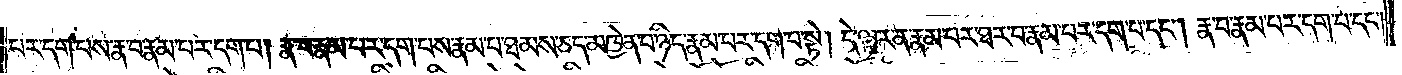པར་དག་པས་རྣ་བ་རྣམ་པར་དག་པ། རྣ་བ་རྣམ་པར་དག་པས་རྣམ་པ་ཐམས་ཅད་མཁྱེན་པ་ཉིད་རྣམ་པར་དག་པ་སྟེ། དེ་ལྟར་ན་རྣམ་པར་ཐར་པ་རྣམ་པར་དག་པ་དང༌། རྣ་བ་རྣམ་པར་དག་པ་དང༌།
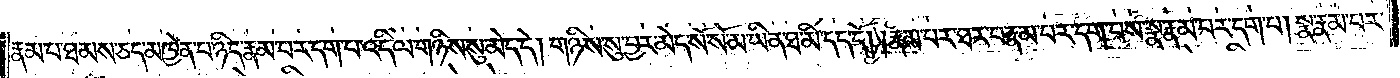རྣམ་པ་ཐམས་ཅད་མཁྱེན་པ་ཉིད་རྣམ་པར་དག་པ་འདི་ལ་གཉིས་སུ་མེད་དེ། གཉིས་སུ་བྱར་མེད་སོ་སོ་མ་ཡིན་ཐ་མི་དང་དོ། །རྣམ་པར་ཐར་པ་རྣམ་པར་དག་པས་སྣ་རྣམ་པར་དག་པ། སྣ་རྣམ་པར་
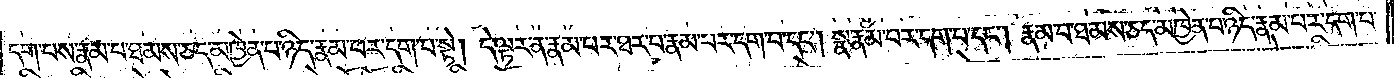དག་པས་རྣམ་པ་ཐམས་ཅད་མཁྱེན་པ་ཉིད་རྣམ་པར་དག་པ་སྟེ། དེ་ལྟར་ན་རྣམ་པར་ཐར་པ་རྣམ་པར་དག་པ་དང༌། སྣ་རྣམ་པར་དག་པ་དང༌། རྣམ་པ་ཐམས་ཅད་མཁྱེན་པ་ཉིད་རྣམ་པར་དག་པ་
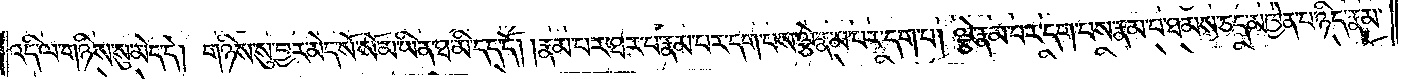འདི་ལ་གཉིས་སུ་མེད་དེ། གཉིས་སུ་བྱར་མེད་སོ་སོ་མ་ཡིན་ཐ་མི་དད་དོ། །རྣམ་པར་ཐར་པ་རྣམ་པར་དག་པས་ལྕེ་རྣམ་པར་དག་པ། ལྕེ་རྣམ་པར་དག་པས་རྣམ་པ་ཐམས་ཅད་མཁྱེན་པ་ཉིད་རྣམ་
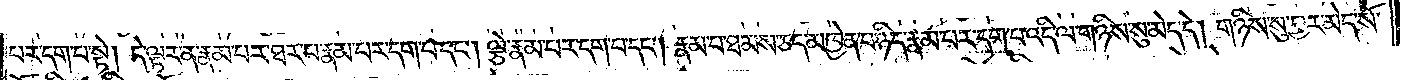པར་དག་པ་སྟེ། དེ་ལྟར་ན་རྣམ་པར་ཐར་པ་རྣམ་པར་དག་པ་དང༌། ལྕེ་རྣམ་པར་དག་པ་དང༌། རྣམ་པ་ཐམས་ཅད་མཁྱེན་པ་ཉིད་རྣམ་པར་དག་པ་འདི་ལ་གཉིས་སུ་མེད་དེ། གཉིས་སུ་བྱར་མེད་སོ་
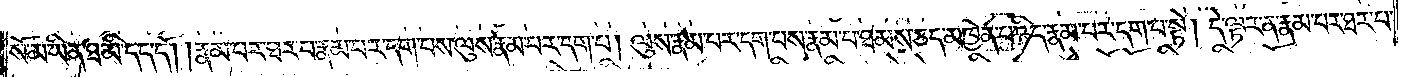སོ་མ་ཡིན་ཐ་མི་དད་དོ། །རྣམ་པར་ཐར་པ་རྣམ་པར་དག་པས་ལུས་རྣམ་པར་དག་པ། ལུས་རྣམ་པར་དག་པས་རྣམ་པར་ཐམས་ཅད་མཁྱེན་པ་ཉིད་རྣམ་པར་དག་པ་སྟེ། དེ་ལྟར་ན་རྣམ་པར་ཐར་པ་
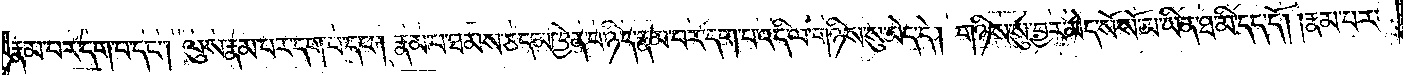རྣམ་པར་དག་པ་དང༌། ལུས་རྣམ་པར་དག་པ་དང༌། རྣམ་པ་ཐམས་ཅད་མཁྱེན་པ་ཉིད་རྣམ་པར་དག་པ་འདི་ལ་གཉིས་སུ་མེད་དེ། གཉིས་སུ་བྱར་མེད་སོ་སོ་མ་ཡིན་ཐ་མི་དད་དོ། །རྣམ་པར་
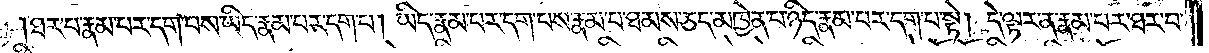ཐར་པ་རྣམ་པར་དག་པས་ཡིད་རྣམ་པར་དག་པ། ཡིད་རྣམ་པར་དག་པས་རྣམ་པ་ཐམས་ཅད་མཁྱེན་པ་ཉིད་རྣམ་པར་དག་པ་སྟེ། དེ་ལྟར་ན་རྣམ་པར་ཐར་པ་
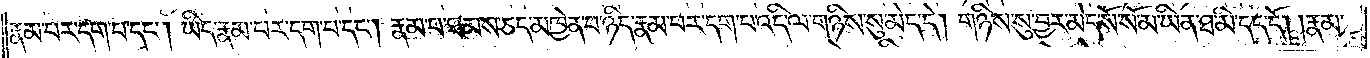རྣམ་པར་དག་པ་དང༌། ཡིད་རྣམ་པར་དག་པ་དང༌། རྣམ་པ་ཐམས་ཅད་མཁྱེན་པ་ཉིད་རྣམ་པར་དག་པ་འདི་ལ་གཉིས་སུ་མེད་དེ། གཉིས་སུ་བྱར་མེད་སོ་སོ་མ་ཡིན་ཐ་མི་དད་དོ། །རྣམ་
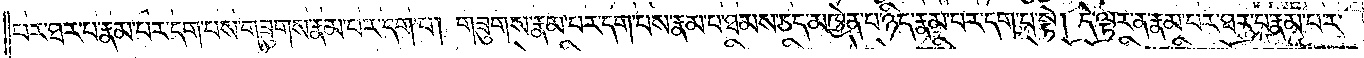པར་ཐར་པ་རྣམ་པར་དག་པས་གཟུགས་རྣམ་པར་དག་པ། གཟུགས་རྣམ་པར་དག་པས་རྣམ་པ་ཐམས་ཅད་མཁྱེན་པ་ཉིད་རྣམ་པར་དག་པ་སྟེ། དེ་ལྟར་ན་རྣམ་པར་ཐར་པ་རྣམ་པར་
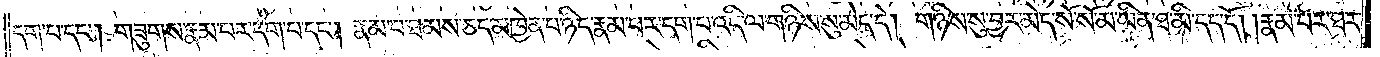དག་པ་དང༌། གཟུགས་རྣམ་པར་དག་པ་དང༌། རྣམ་པ་ཐམས་ཅད་མཁྱེན་པ་ཉིད་རྣམ་པར་དག་པ་འདི་ལ་གཉིས་སུ་མེད་དེ། གཉིས་སུ་བྱར་མེད་སོ་སོ་མ་ཡིན་ཐ་མི་དད་དོ། །རྣམ་པར་ཐར་
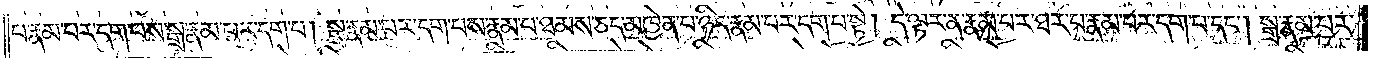པ་རྣམ་པར་དག་པས་སྒྲ་རྣམ་པར་དག་པ། སྒྲ་རྣམ་པར་དག་པས་རྣམ་པར་ཐམས་ཅད་མཁྱེན་པ་ཉིད་རྣམ་པར་དག་པ་སྟེ། དེ་ལྟར་ན་རྣམ་པར་ཐར་པ་རྣམ་པར་དག་པ་དང༌། སྒྲ་རྣམ་པར་
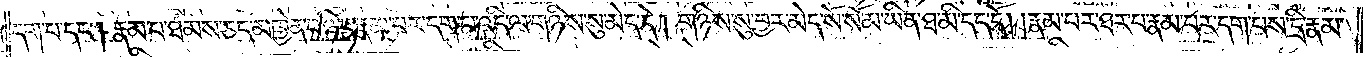དག་པ་དང༌། རྣམ་པ་ཐམས་ཅད་མཁྱེན་པ་ཉིད་རྣམ་པར་དག་པ་འདི་ལ་གཉིས་སུ་མེད་དེ། གཉིས་སུ་བྱར་མེད་སོ་སོ་མ་ཡིན་ཐ་མི་དད་དོ། །རྣམ་པར་ཐར་པ་རྣམ་པར་དག་པས་དྲི་རྣམ་
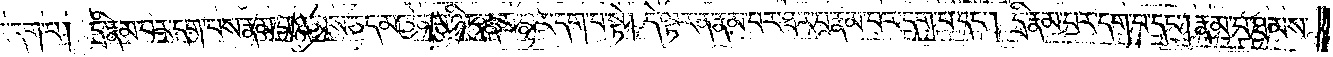པར་དག་པ། དྲི་རྣམ་པར་དག་པས་རྣམ་པ་ཐམས་ཅད་མཁྱེན་པ་ཉིད་རྣམ་པར་དག་པ་སྟེ། དེ་ལྟར་ན་རྣམ་པར་ཐར་པ་རྣམ་པར་དག་པ་དང༌། དྲི་རྣམ་པར་དག་པ་དང༌། རྣམ་པ་ཐམས་
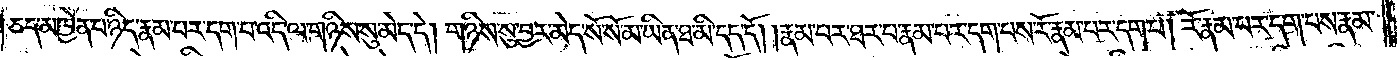ཅད་མཁྱེན་པ་ཉིད་རྣམ་པར་དག་པ་འདི་ལ་གཉིས་སུ་མེད་དེ། གཉིས་སུ་བྱར་མེད་སོ་སོ་མ་ཡིན་ཐ་མི་དད་དོ། །རྣམ་པར་ཐར་པ་རྣམ་པར་དག་པས་རོ་རྣམ་པར་དག་པ། རོ་རྣམ་པར་དག་པས་རྣམ་
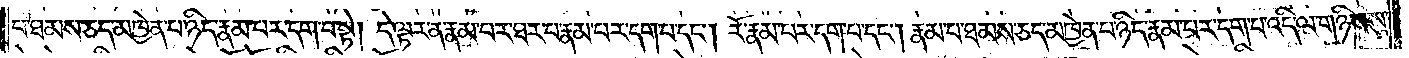པ་ཐམས་ཅད་མཁྱེན་པ་ཉིད་རྣམ་པར་དག་པ་སྟེ། དེ་ལྟར་ན་རྣམ་པར་ཐར་པ་རྣམ་པར་དག་པ་དང༌། རོ་རྣམ་པར་དག་པ་དང༌། རྣམ་པ་ཐམས་ཅད་མཁྱེན་པ་ཉིད་རྣམ་པར་དག་པ་འདི་ལ་གཉིས་སུ་
